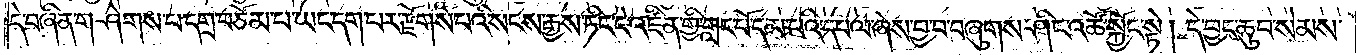དེ་བཞིན་གཤེགས་པ་དགྲ་བཅོམ་པ་ཡང་དག་པར་རྫོགས་པའི་སངས་རྒྱས་ཏིང་ངེ་འཛིན་གྱི་གླང་པོ་དམ་པའི་དཔལ་ཞེས་བྱ་བ་བཞུགས་ཤིང་འཚོ་སྐྱོང་སྟེ། དེ་བྱང་ཆུབ་སེམས་
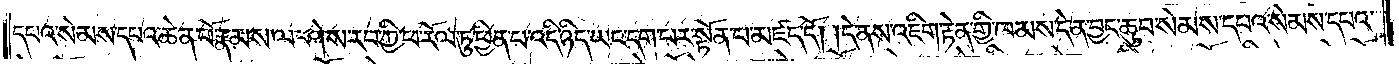དཔའ་སེམས་དཔའ་ཆེན་པོ་རྣམས་ལ་ཤེས་རབ་ཀྱི་ཕ་རོལ་ཏུ་ཕྱིན་པ་འདི་ཉིད་ཡང་དག་པར་སྟོན་པ་མཛད་དོ། །དེ་ནས་འཇིག་རྟེན་གྱི་ཁམས་དེ་ན་བྱང་ཆུབ་སེམས་དཔའ་སེམས་དཔའ་
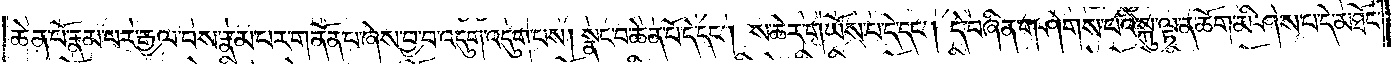ཆེན་པོ་རྣམ་པར་རྒྱལ་བས་རྣམ་པར་གནོན་པ་ཞེས་བྱ་བ་འདུག་འདུག་པས། སྣང་བ་ཆེན་པོ་དེ་དང༌། ས་ཆེར་གཡོས་པ་དེ་དང༌། དེ་བཞིན་གཤེགས་པའི་སྐུ་ལྟ་ན་ཆོག་མི་ཤེས་པ་དེ་མཐོང་
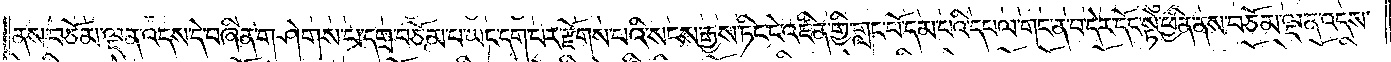ནས་བཅོམ་ལྡན་འདས་དེ་བཞིན་གཤེགས་པ་དགྲ་བཅོམ་པ་ཡང་དག་པར་རྫོགས་པའི་སངས་རྒྱས་ཏིང་ངེ་འཛིན་གྱི་གླང་པོ་དམ་པའི་དཔལ་གང་ན་བ་དེར་དོང་སྟེ་ཕྱིན་ནས་བཅོམ་ལྡན་འདས་
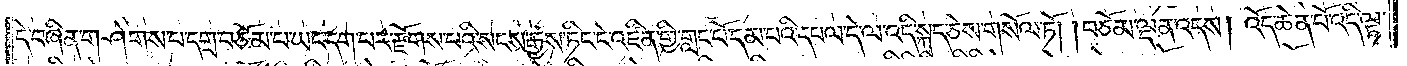དེ་བཞིན་གཤེགས་པ་དགྲ་བཅོམ་པ་ཡང་དག་པར་རྫོགས་པའི་སངས་རྒྱས་ཏིང་ངེ་འཛིན་གྱི་གླང་པོ་དམ་པའི་དཔལ་དེ་ལ་འདི་སྐད་ཅེས་གསོལ་ཏོ། །བཅོམ་ལྡན་འདས། འོད་ཆེན་པོ་འདི་ལྟ་
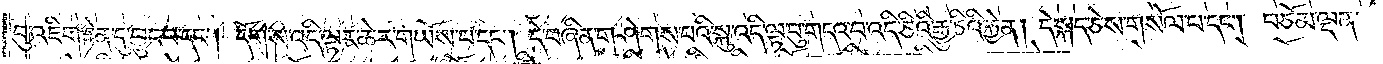བུ་འཇིག་རྟེན་དུ་བྱུང་བ་དང༌། དོག་ས་འདི་ལྟར་ཆེར་གཡོས་པ་དང༌། དེ་བཞིན་གཤེགས་པའི་སྐུ་འདི་ལྟ་བུ་གདའ་བ་འདི་ཅིའི་རྒྱུ་ཅིའི་རྐྱེན། དེ་སྐད་ཅེས་གསོལ་པ་དང༌། བཅོམ་ལྡན་
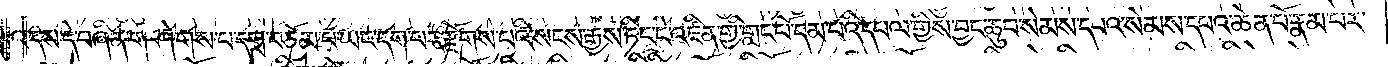འདས་དེ་བཞིན་གཤེགས་པ་དགྲ་བཅོམ་པ་ཡང་དག་པར་རྫོགས་པའི་སངས་རྒྱས་ཏིང་ངེ་འཛིན་གྱི་གླང་པོ་དམ་པའི་དཔལ་གྱིས་བྱང་ཆུབ་སེམས་དཔའ་སེམས་དཔའ་ཆེན་པོ་རྣམ་པར་
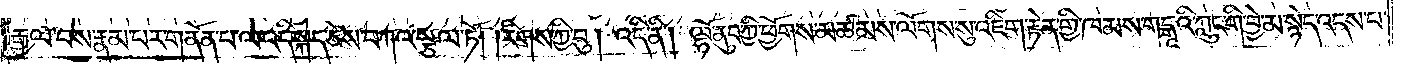རྒྱལ་བས་རྣམ་པར་གནོན་པ་ལ་འདི་སྐད་ཅེས་བཀའ་སྩལ་ཏོ། །རིགས་ཀྱི་བུ། འདི་ནི། ལྷོ་ནུབ་ཀྱི་ཕྱོགས་མཚམས་ལོགས་སུ་འཇིག་རྟེན་གྱི་ཁམས་གངྒཱའི་ཀླུང་གི་བྱེ་མ་སྙེད་འདས་པ་
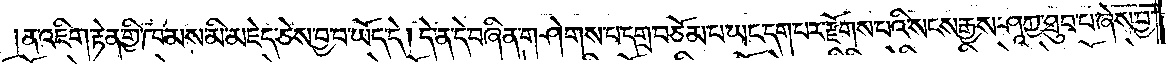ན་འཇིག་རྟེན་གྱི་ཁམས་མི་མཇེད་ཅེས་བྱ་བ་ཡོད་དེ། དེ་ན་དེ་བཞིན་གཤེགས་པ་དགྲ་བཅོམ་པ་ཡང་དག་པར་རྫོགས་པའི་སངས་རྒྱས་ཤཱཀྱ་ཐུབ་པ་ཞེས་བྱ་
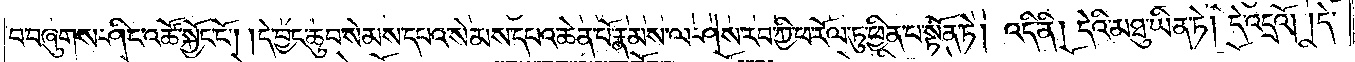བ་བཞུགས་ཤིང་འཚོ་སྐྱོང་ངོ༌། །དེ་བྱང་ཆུབ་སེམས་དཔའ་སེམས་དཔའ་ཆེན་པོ་རྣམས་ལ་ཤེས་རབ་ཀྱི་ཕ་རོལ་ཏུ་ཕྱིན་པ་སྟོན་ཏེ། འདི་ནི། དེའི་མཐུ་ཡིན་ཏེ། དེ་འདྲའོ། །དེ་
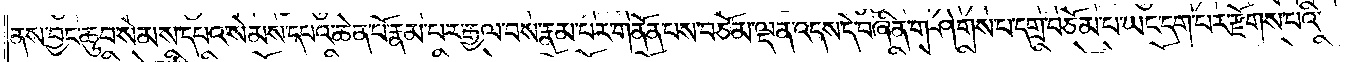ནས་བྱང་ཆུབ་སེམས་དཔའ་སེམས་དཔའ་ཆེན་པོ་རྣམ་པར་རྒྱལ་བས་རྣམ་པར་གནོན་པས་བཅོམ་ལྡན་འདས་དེ་བཞིན་གཤེགས་པ་དགྲ་བཅོམ་པ་ཡང་དག་པར་རྫོགས་པའི་
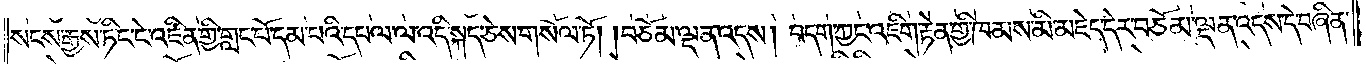སངས་རྒྱས་ཏིང་ངེ་འཛིན་གྱི་གླང་པོ་དམ་པའི་དཔལ་ལ་འདི་སྐད་ཅེས་གསོལ་ཏོ། །བཅོམ་ལྡན་འདས། བདག་ཀྱང་འཇིག་རྟེན་གྱི་ཁམས་མི་མཇེད་དེར་བཅོམ་ལྡན་འདས་དེ་བཞིན་
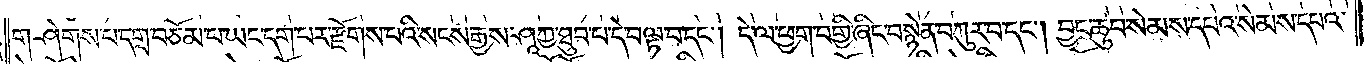གཤེགས་པ་དགྲ་བཅོམ་པ་ཡང་དག་པར་རྫོགས་པའི་སངས་རྒྱས་ཤཱཀྱ་ཐུབ་པ་དེ་བལྟ་བ་དང༌། དེ་ལ་ཕྱག་བགྱི་ཞིང་བསྙེན་བཀུར་བ་དང༌། བྱང་ཆུབ་སེམས་དཔའ་སེམས་དཔའ་
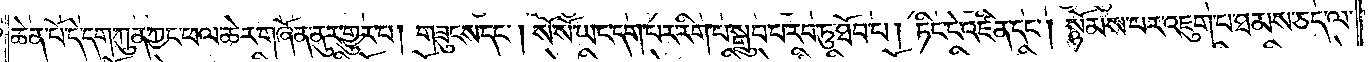ཆེན་པོ་དེ་དག་ཀུན་ཀྱང་ཕལ་ཆེར་གཞོན་ནུར་གྱུར་པ། གཟུངས་དང༌། སོ་སོ་ཡང་དག་པར་རིག་པ་སྒྲུབ་པ་རབ་ཏུ་ཐོབ་པ། ཏིང་ངེ་འཛིན་དང༌། སྙོམས་པར་འཇུག་པ་ཐམས་ཅད་ལ་
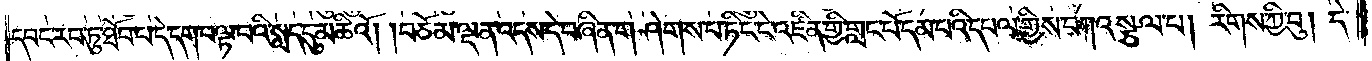དབང་རབ་ཏུ་ཐོབ་པ་དེ་དག་བལྟ་བའི་སླད་དུ་མཆིའོ། །བཅོམ་ལྡན་འདས་དེ་བཞིན་གཤེགས་པ་ཏིང་ངེ་འཛིན་གྱི་གླང་པོ་དམ་པའི་དཔལ་གྱིས་བཀའ་སྩལ་པ། རིགས་ཀྱི་བུ། དེ་
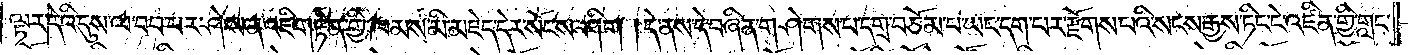ལྟར་དེའི་དུས་ལ་བབ་པར་ཤེས་ན་འཇིག་རྟེན་གྱི་ཁམས་མི་མཇེད་དེར་སོངས་ཤིག །དེ་ནས་དེ་བཞིན་གཤེགས་པ་དགྲ་བཅོམ་པ་ཡང་དག་པར་རྫོགས་པའི་སངས་རྒྱས་ཏིང་ངེ་འཛིན་གྱི་གླང་
